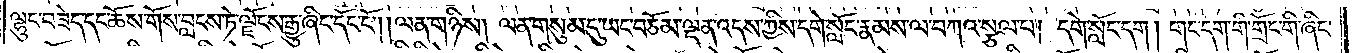ལྷུང་བཟེད་དང་ཆོས་གོས་བླངས་ཏེ་ལྗོངས་རྒྱུ་ཞིང་དོང་ངོ༌། ལན་གཉིས། ལན་གསུམ་དུ་ཡང་བཅོམ་ལྡན་འདས་ཀྱིས་དགེ་སློང་རྣམས་ལ་བཀའ་སྩལ་པ། དགེ་སློང་དག །གང་དག་གི་གྲོང་གི་ཞིང་
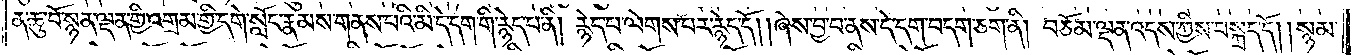ན་ཆུ་བོ་སྙན་ལྡན་གྱི་འགྲམ་གྱི་དགེ་སློང་རྣམས་གནས་པའི་མི་དེ་དག་གི་རྙེད་པ་ནི། རྙེད་པ་ལེགས་པར་རྙེད་དོ། །ཞེས་བྱ་བ་ནས་དེ་དག་བདག་ཅག་ནི། བཅོམ་ལྡན་འདས་ཀྱིས་བསྐྲད་དོ། །སྙམ་
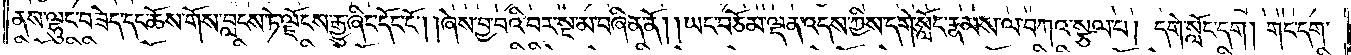ནས་ལྷུང་བཟེད་དང་ཆོས་གོས་བླངས་ཏེ་ལྗོངས་རྒྱུ་ཞིང་དོང་ངོ༌། །ཞེས་བྱ་བའི་བར་སྔ་མ་བཞིན་ནོ། །ཡང་བཅོམ་ལྡན་འདས་ཀྱིས་དགེ་སློང་རྣམས་ལ་བཀའ་སྩལ་པ། དགེ་སློང་དག །གང་དག་
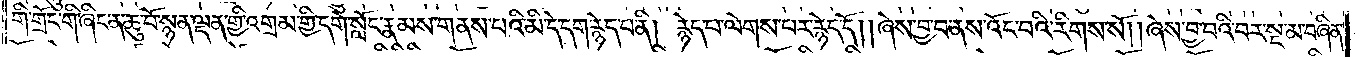གི་གྲོང་གི་ཞིང་ན་ཆུ་བོ་སྙན་ལྡན་གྱི་འགྲམ་གྱི་དགེ་སློང་རྣམས་གནས་པའི་མི་དེ་དག་རྙེད་པ་ནི། རྙེད་པ་ལེགས་པར་རྙེད་དོ། །ཞེས་བྱ་བ་ནས་འོང་བའི་རིགས་སོ། །ཞེས་བྱ་བའི་བར་སྔ་མ་བཞིན་
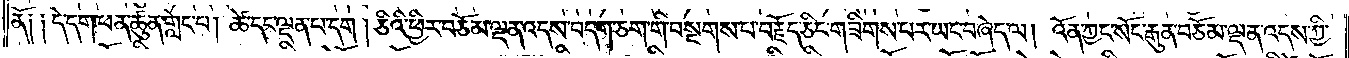ནོ༑ ༑དེ་དག་ཕན་ཚུན་གླེང་པ། ཚེ་དང་ལྡན་པ་དག །ཅིའི་ཕྱིར་བཅོམ་ལྡན་འདས་བདག་ཅག་གི་བསྔགས་པ་བརྗོད་ཅིང་གཟིགས་པར་ཡང་བཞེད་ལ། འོན་ཀྱང་སོང་རྒུན་བཅོམ་ལྡན་འདས་ཀྱི་
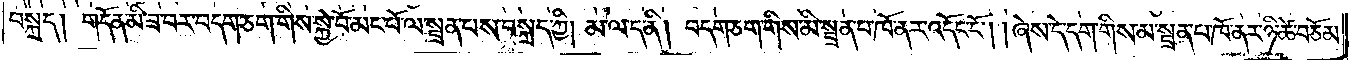བསྐྲད། གདོན་མི་ཟ་བར་བདག་ཅག་གིས་སྐྱེ་བོ་མང་པོ་ལ་སྦྲན་པས་བསྐྲད་ཀྱི། མ་ལ་ད་ནི། བདག་ཅག་གིས་མི་སྦྲན་པ་ཁོ་ནར་འདོང་ངོ༌། །ཞེས་དེ་དག་གིས་མ་སྦྲན་པ་ཁོ་ནར་ཉི་ཚེ་བཅོམ་
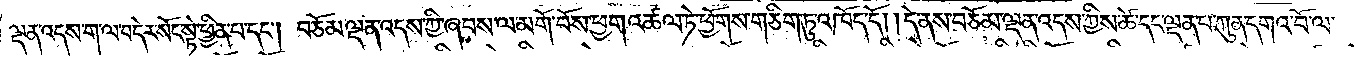ལྡན་འདས་ག་ལ་བ་དེར་སོང་སྟེ་ཕྱིན་པ་དང༌། བཅོམ་ལྡན་འདས་ཀྱི་ཞབས་ལ་མགོ་བོས་ཕྱག་འཚལ་ཏེ་ཕྱོགས་གཅིག་ཏུ་འཁོད་དོ། །དེ་ནས་བཅོམ་ལྡན་འདས་ཀྱིས་ཚེ་དང་ལྡན་པ་ཀུན་དགའ་བོ་ལ་
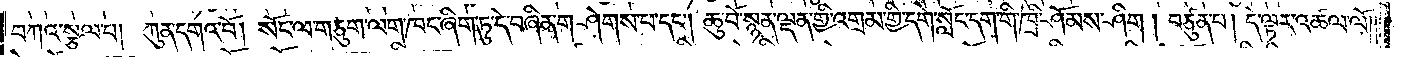བཀའ་སྩལ་པ། ཀུན་དགའ་བོ། སོང་ལ་གཙུག་ལག་ཁང་ཞིག་ཏུ་དེ་བཞིན་གཤེགས་པ་དང༌། ཆུ་བོ་སྙན་ལྡན་གྱི་འགྲམ་གྱི་དགེ་སློང་དག་གི་ཁྲི་ཤོམས་ཤིག །བཙུན་པ། དེ་ལྟར་འཚལ་ལོ༎
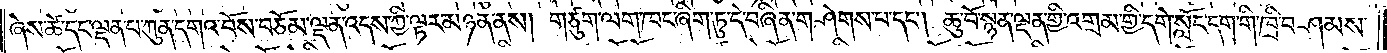ཞེས་ཚེ་དང་ལྡན་པ་ཀུན་དགའ་བོས་བཅོམ་ལྡན་འདས་ཀྱི་ལྟར་མཉན་ནས། གཙུག་ལག་ཁང་ཞིག་ཏུ་དེ་བཞིན་གཤེགས་པ་དང༌། ཆུ་བོ་སྙན་ལྡན་གྱི་འགྲམ་གྱི་དགེ་སློང་དག་གི་ཁྲི་བཤམས་
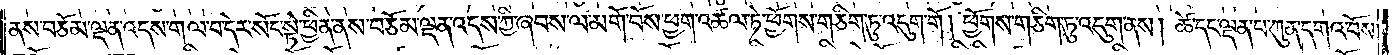ནས་བཅོམ་ལྡན་འདས་ག་ལ་བ་དེར་སོང་སྟེ་ཕྱིན་ནས་བཅོམ་ལྡན་འདས་ཀྱི་ཞབས་ལ་མགོ་བོས་ཕྱག་འཚལ་ཏེ་ཕྱོགས་གཅིག་ཏུ་འདུག་གོ །ཕྱོགས་གཅིག་ཏུ་འདུག་ནས། ཚེ་དང་ལྡན་པ་ཀུན་དགའ་བོས་
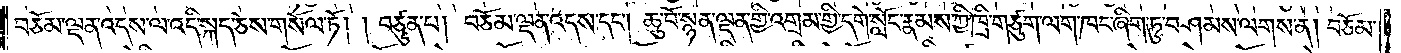བཅོམ་ལྡན་འདས་ལ་འདི་སྐད་ཅེས་གསོལ་ཏོ། །བཙུན་པ། བཅོམ་ལྡན་འདས་དང༌། ཆུ་བོ་སྙན་ལྡན་གྱི་འགྲམ་གྱི་དགེ་སློང་རྣམས་ཀྱི་ཁྲི་གཙུག་ལག་ཁང་ཞིག་ཏུ་བཤམས་ལགས་ན། བཅོམ་
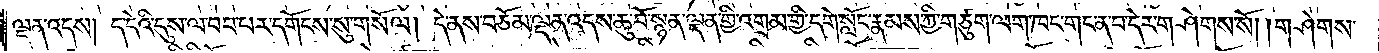ལྡན་འདས། ད་དེའི་དུས་ལ་བབ་པར་དགོངས་སུ་གསོལ། དེ་ནས་བཅོམ་ལྡན་འདས་ཆུ་བོ་སྙན་ལྡན་གྱི་འགྲམ་གྱི་དགེ་སློང་རྣམས་ཀྱི་གཙུག་ལག་ཁང་གང་ན་བ་དེར་གཤེགས་སོ། །གཤེགས་
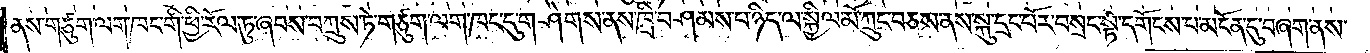ནས་གཙུག་ལག་ཁང་གི་ཕྱི་རོལ་ཏུ་ཞབས་བཀྲུས་ཏེ་གཙུག་ལག་ཁང་དུ་གཤེགས་ནས་ཁྲི་བཤམས་པ་ཉིད་ལ་སྐྱིལ་མོ་ཀྲུང་བཅས་ནས་སྐུ་དྲང་པོར་བསྲང་སྟེ་དགོངས་པ་མངོན་དུ་བཞག་ནས་
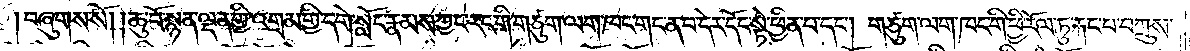བཞུགས་སོ། །ཆུ་བོ་སྙན་ལྡན་གྱི་འགྲམ་གྱི་དགེ་སློང་རྣམས་ཀྱང་རང་གི་གཙུག་ལག་ཁང་གང་ན་བ་དེར་དོང་སྟེ་ཕྱིན་པ་དང༌། གཙུག་ལག་ཁང་གི་ཕྱི་རོལ་ཏུ་རྐང་པ་བཀྲུས་
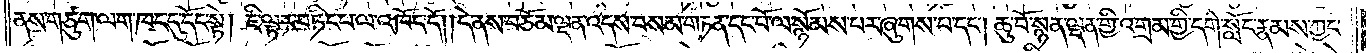ནས་གཙུག་ལག་ཁང་དུ་དོང་སྟེ། ཇི་ལྟར་བཏིང་པ་ལ་འཁོད་དོ། །དེ་ནས་བཅོམ་ལྡན་འདས་བསམ་གཏན་དང་པོ་ལ་སྙོམས་པར་ཞུགས་པ་དང༌། ཆུ་བོ་སྙན་ལྡན་གྱི་འགྲམ་གྱི་དགེ་སློང་རྣམས་ཀྱང་
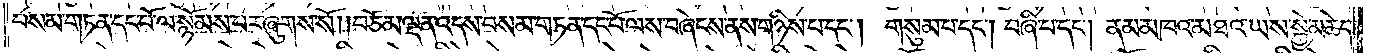བསམ་གཏན་དང་པོ་ལ་སྙོམས་པར་ཞུགས་སོ། །བཅོམ་ལྡན་འདས་བསམ་གཏན་དང་པོ་ལས་བཞེངས་ནས་གཉིས་པ་དང༌། གསུམ་པ་དང༌། བཞི་པ་དང༌། ནམ་མཁའ་མཐའ་ཡས་སྐྱེ་མཆེད་
